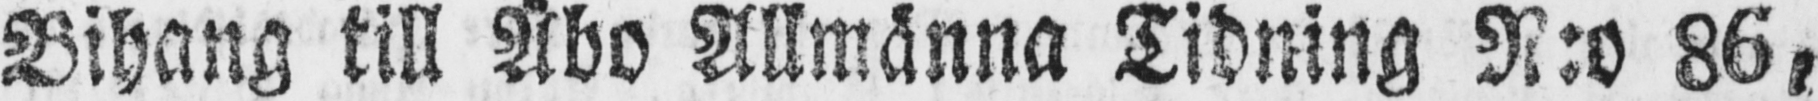Bihang till Åbo Allmänna Tidning N:o 86,
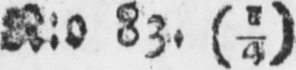N:o 83. (¼)
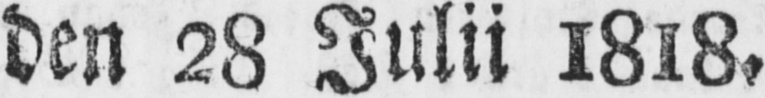den 28 Julii 1818.
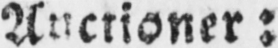Auctioner:
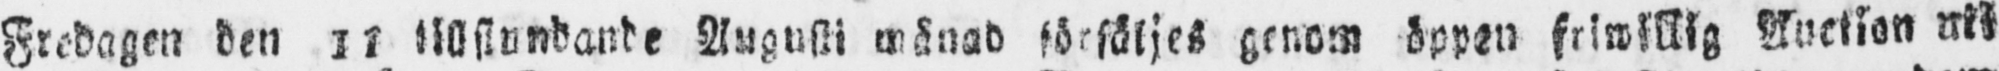Fredagen den 11 tillstundande Augusti månad försäljes genom öppen friwillig Auction uti
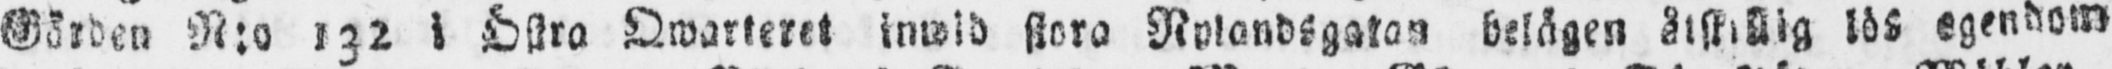Gården N:o 132 i Östra Qwarteret inwid stora Nylandsgatan belägen åtskillig lös egendom
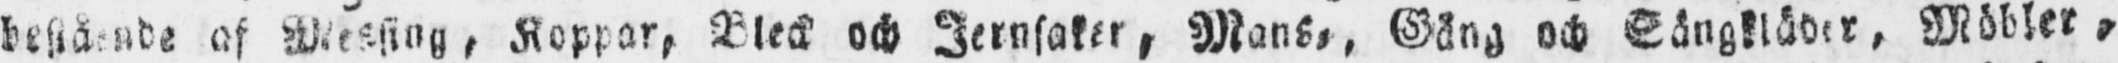bestående af Messing, Koppar, Bleck och Jernsaker, Mans-, Gång och Sängkläder, Möbler,
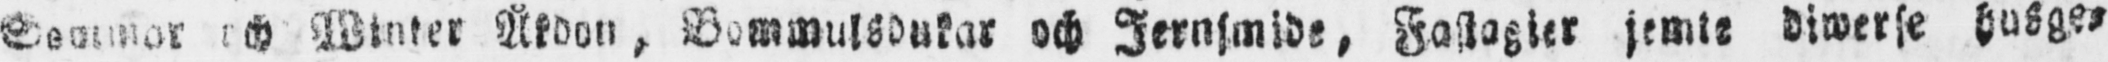Sommar och Winter Åkdon, Bommulsdukar och Jernsmide, Fastagier jemte diwerse husge-
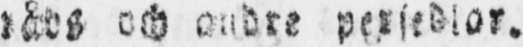råds och andra persedlar.
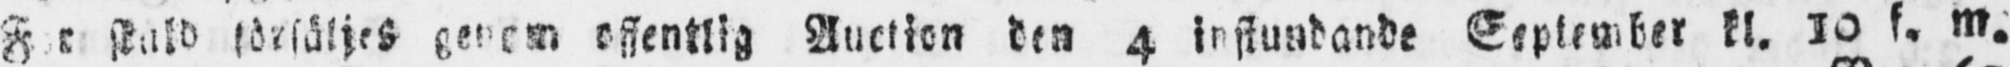F r skald försäljes genom offentlig Auction den 4 instundande September kl. 10 f. m.
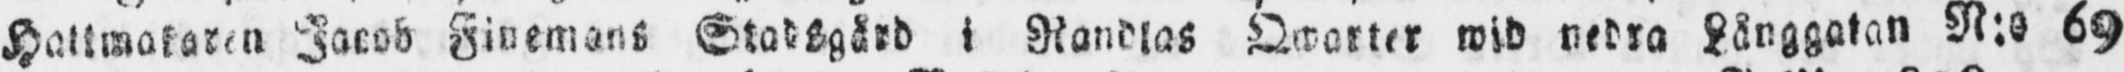Hattmakaren Jacob Finemans Stadsgård i Randlas Qwarter wid nedra Långgatan N:o 69
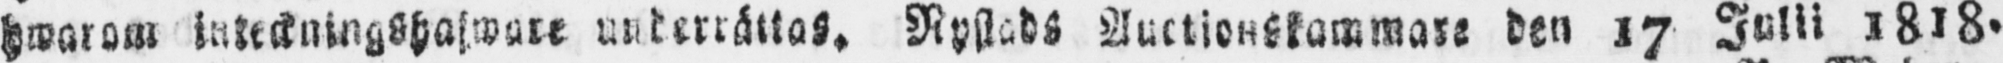hwarom inteckningshafware underrättas. Nystads Auctionskammare den 17 Julii 1818.
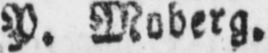P. Moberg.
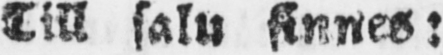Till salu finnes:
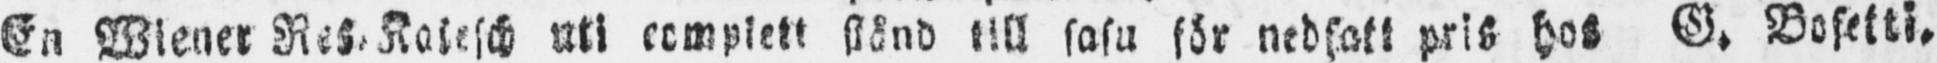En Wiener Res-Kalesch uti complett stånd till salu för nedsatt pris hos G. Bofetti.
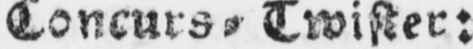Concurs-Twister:
